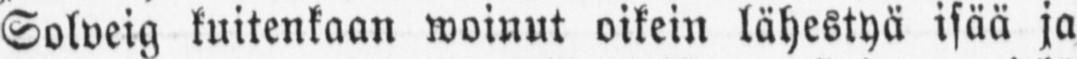Solveig kuitenkaan woinut oikein lähestyä isää ja
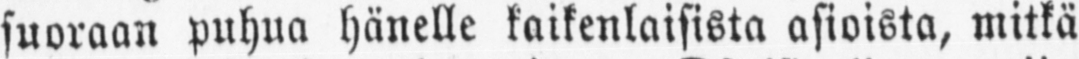suoraan puhua hänelle kaikenlaisista asioista, mitkä
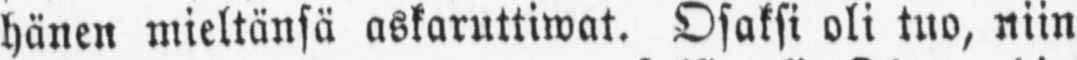hänen mieltänsä askaruttiwat. Osaksi oli tuo, niin
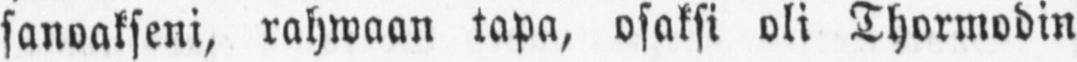sanoakseni, rahwaan tapa, osaksi oli Thormodin
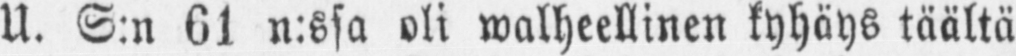U. S:n 61 n:ssa oli walheellinen kyhäys täältä
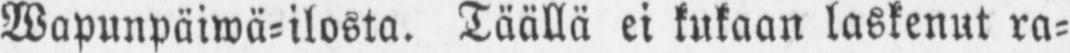Wapunpäiwä-ilosta. Täällä ei kukaan laskenut ra-
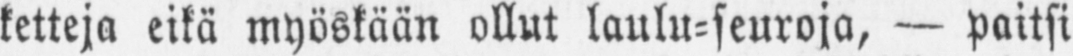ketteja eikä myöskään ollut laulu-seuroja, — paitsi
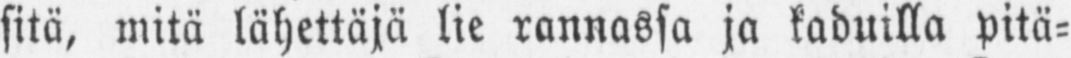sitä, mitä lähettäjä lie rannassa ja kaduilla pitä-
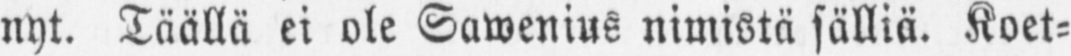nyt. Täällä ei ole Sawenius nimistä sälliä. Koet-
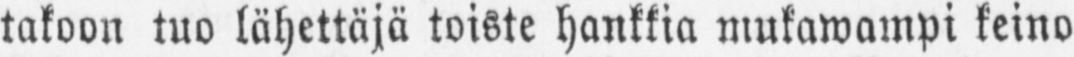takoon tuo lähettäjä toiste hankkia mukawampi keino
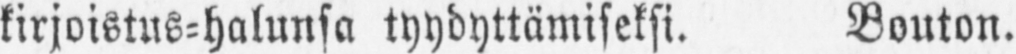kirjoistus-halunsa tyydyttämiseksi. Bouton.
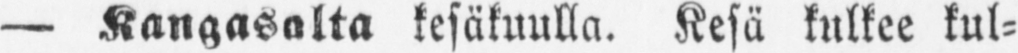—Kangasalla kesäkuulla. Kesä kulkee kul-
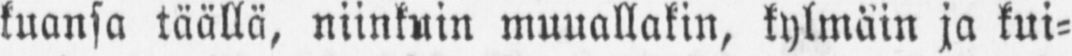kuansa täällä, niinkuin muuallakin, kylmäin ja kui-
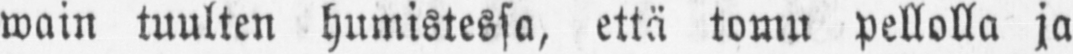wain tuulten humistessa, että tomu pellolla ja
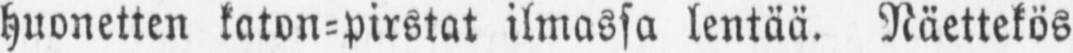huonetten katon-pirstat ilmassa lentää. Näettekös
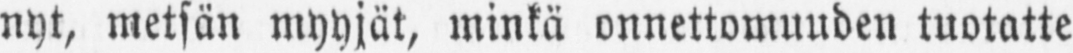nyt, metsän myyjät, minkä onnettomuuden tuotatte
